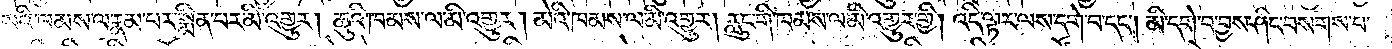སའི་ཁམས་ལ་རྣམ་པར་སྨིན་པར་མི་འགྱུར། ཆུའི་ཁམས་ལ་མི་འགྱུར། མེའི་ཁམས་ལ་མི་འགྱུར། རླུང་གི་ཁམས་ལ་མི་འགྱུར་གྱི། འདི་ལྟར་ལས་དགེ་བ་དང༌། མི་དགེ་བ་བྱས་ཤིང་བསགས་པ་
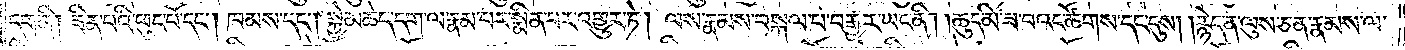དག་ནི། ཟིན་པའི་ཕུང་པོ་དང༌། ཁམས་དང༌། སྐྱེ་མཆེད་དག་ལ་རྣམ་པར་སྨིན་པར་འགྱུར་ཏེ། ལས་རྣམས་བསྐལ་པ་བརྒྱར་ཡང་ནི། །ཆུད་མི་ཟ་བའང་ཚོགས་དང་དུས། །རྙེད་ན་ལུས་ཅན་རྣམས་ལ་
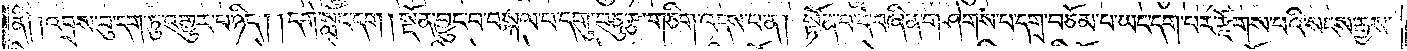ནི༑ ༑འབྲས་བུ་དག་ཏུ་འགྱུར་པ་ཉིད། །དགེ་སློང་དག །སྔོན་བྱུང་བ་བསྐལ་པ་དགུ་བཅུ་རྩ་གཅིག་འདས་པ་ན། སྟོན་པ་དེ་བཞིན་གཤེགས་པ་དགྲ་བཅོམ་པ་ཡང་དག་པར་རྫོགས་པའི་སངས་རྒྱས་
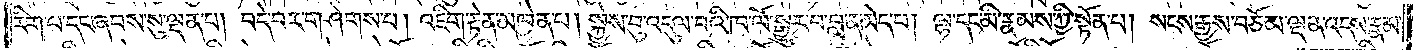རིག་པ་དང་ཞབས་སུ་ལྡན་པ། བདེ་བར་གཤེགས་པ། འཇིག་རྟེན་མཁྱེན་པ། སྐྱེས་བུ་འདུལ་བའི་ཁ་ལོ་སྒྱུར་བ་བླ་ན་མེད་པ། ལྷ་དང་མི་རྣམས་ཀྱི་སྟོན་པ། སངས་རྒྱས་བཅོམ་ལྡན་འདས་རྣམ་
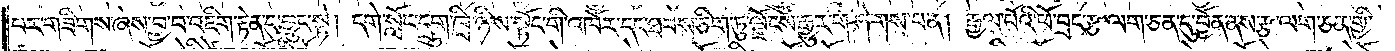པར་གཟིགས་ཞེས་བྱ་བ་འཇིག་རྟེན་དུ་བྱུང་སྟེ། དགེ་སློང་དྲུག་ཁྲི་ཉིས་སྟོང་གི་འཁོར་དང་ཐབས་ཅིག་ཏུ་ལྗོངས་རྒྱུར་གཤེགས་པ་ན། རྒྱལ་པོའི་ཕོ་བྲང་རྩ་ལག་ཅན་དུ་བྱོན་ནས་རྩ་ལག་ཅན་གྱི་
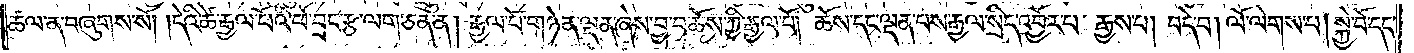ཚལ་ན་བཞུགས་སོ། །དེའི་ཚེ་རྒྱལ་པོའི་ཕོ་བྲང་རྩ་ལག་ཅན་ན། རྒྱལ་པོ་གཉེན་ལྡན་ཞེས་བྱ་བ་ཆོས་ཀྱི་རྒྱལ་པོ། ཆོས་དང་ལྡན་པས་རྒྱལ་སྲིད་འབྱོར་པ་རྒྱས་པ། བདེ་བ། ལོ་ལེགས་པ། སྐྱེ་བོ་དང་
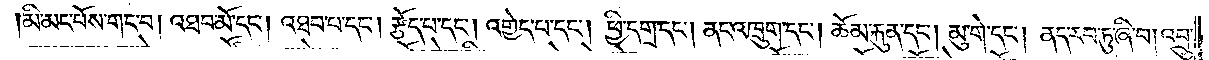མི་མང་པོས་གང་བ། འཐབ་མོ་དང༌། འཐབ་པ་དང༌། རྩོད་པ་དང༌། འགྱེད་པ་དང༌། ཕྱི་དགྲ་དང༌། ནང་འཁྲུག་དང༌། ཆོམ་རྐུན་དང༌། མུ་གེ་དང༌། ནད་རབ་ཏུ་ཞི་བ། འབྲུ་
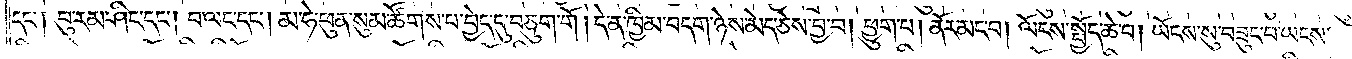དང༌། བུ་རམ་ཤིང་དང༌། བ་ལང་དང༌། མ་ཧེ་ཕུན་སུམ་ཚོགས་པ་བྱེད་དུ་བཅུག་གོ །དེ་ན་ཁྱིམ་བདག་ཉེས་མེད་ཅེས་བྱ་བ། ཕྱུག་པ། ནོར་མང་བ། ལོངས་སྤྱོད་ཆེ་བ། ཡོངས་སུ་བཟུང་བ་ཡངས་
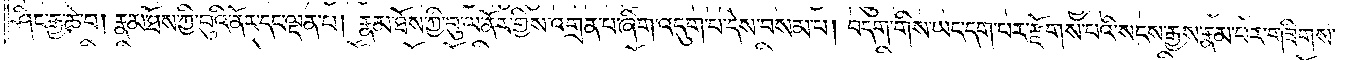ཤིང་རྒྱ་ཆེ་བ། རྣམ་ཐོས་ཀྱི་བུའི་ནོར་དང་ལྡན་པ། རྣམ་ཐོས་ཀྱི་བུ་ལ་ནོར་གྱིས་འགྲན་པ་ཞིག་འདུག་པ་དེས་བསམ་པ། བདག་གིས་ཡང་དག་པར་རྫོགས་པའི་སངས་རྒྱས་རྣམ་པར་གཟིགས་
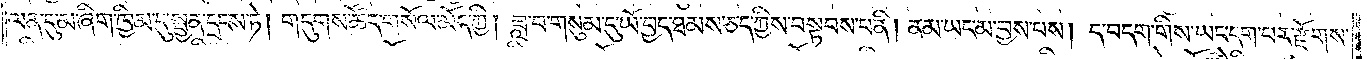ལན་དུ་མ་ཞིག་ཁྱིམ་དུ་སྤྱན་དྲངས་ཏེ། གདུགས་ཚོད་གསོལ་མོད་ཀྱི། ཟླ་བ་གསུམ་དུ་ཡོ་བྱད་ཐམས་ཅད་ཀྱིས་བསྟབས་པ་ནི། ནམ་ཡང་མ་བྱས་པས། ད་བདག་གིས་ཡང་དག་པར་རྫོགས་
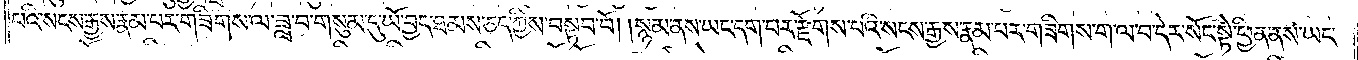པའི་སངས་རྒྱས་རྣམ་པར་གཟིགས་ལ་ཟླ་བ་གསུམ་དུ་ཡོ་བྱད་ཐམས་ཅད་ཀྱིས་བསྟབ་བོ། །སྙམ་ནས་ཡང་དག་པར་རྫོགས་པའི་སངས་རྒྱས་རྣམ་པར་གཟིགས་ག་ལ་བ་དེར་སོང་སྟེ་ཕྱིན་ནས་ཡང་
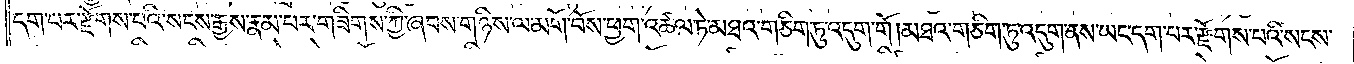དག་པར་རྫོགས་པའི་སངས་རྒྱས་རྣམ་པར་གཟིགས་ཀྱི་ཞབས་གཉིས་ལ་མགོ་བོས་ཕྱག་འཚལ་ཏེ་མཐའ་གཅིག་ཏུ་འདུག་གོ །མཐའ་གཅིག་ཏུ་འདུག་ནས་ཡང་དག་པར་རྫོགས་པའི་སངས་
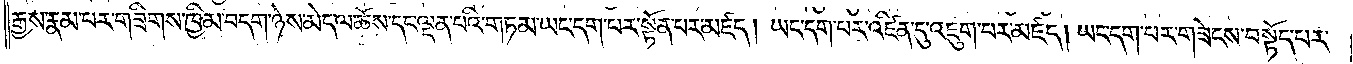རྒྱས་རྣམ་པར་གཟིགས་ཁྱིམ་བདག་ཉེས་མེད་ལ་ཆོས་དང་ལྡན་པའི་གཏམ་ཡང་དག་པར་སྟོན་པར་མཛད། ཡང་དག་པར་འཛིན་དུ་འཇུག་པར་མཛད། ཡང་དག་པར་གཟེངས་བསྟོད་པར་
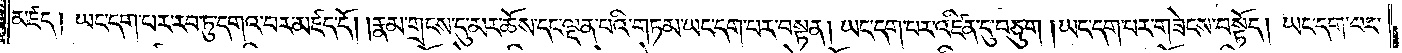མཛད། ཡང་དག་པར་རབ་ཏུ་དགའ་བར་མཛད་དོ། །རྣམ་གྲངས་དུ་མར་ཆོས་དང་ལྡན་པའི་གཏམ་ཡང་དག་པར་བསྟན། ཡང་དག་པར་འཛིན་དུ་བཅུག །ཡང་དག་པར་གཟེངས་བསྟོད། ཡང་དག་པར་
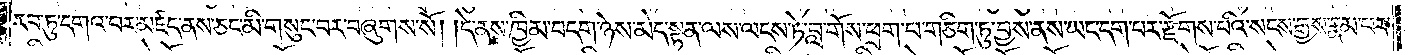རབ་ཏུ་དགའ་བར་མཛད་ནས་ཅང་མི་གསུང་བར་བཞུགས་སོ། །དེ་ནས་ཁྱིམ་བདག་ཉེས་མེད་སྟན་ལས་ལངས་ཏེ་བླ་གོས་ཕྲག་པ་གཅིག་ཏུ་བྱས་ནས་ཡང་དག་པར་རྫོགས་པའི་སངས་རྒྱས་རྣམ་པར་
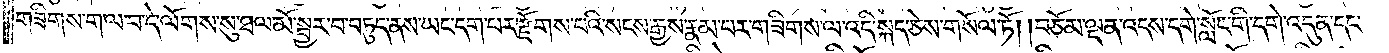གཟིགས་ག་ལ་བ་དེ་ལོགས་སུ་ཐལ་མོ་སྦྱར་བ་བཏུད་ནས་ཡང་དག་པར་རྫོགས་པའི་སངས་རྒྱས་རྣམ་པར་གཟིགས་ལ་འདི་སྐད་ཅེས་གསོལ་ཏོ། །བཅོམ་ལྡན་འདས་དགེ་སློང་གི་དགེ་འདུན་དང་
